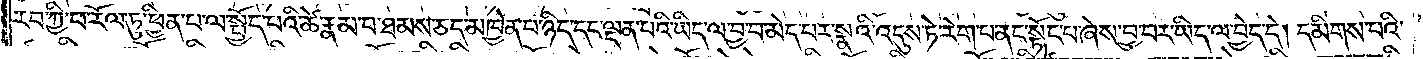རབ་ཀྱི་ཕ་རོལ་ཏུ་ཕྱིན་པ་ལ་སྤྱོད་པའི་ཚེ་རྣམ་པ་ཐམས་ཅད་མཁྱེན་པ་ཉིད་དང་ལྡན་པའི་ཡིད་ལ་བྱ་བ་མེད་པར་སྣའི་འདུས་ཏེ་རེག་པ་ནང་སྟོང་པ་ཞེས་བྱ་བར་ཡིད་ལ་བྱེད་དེ། དམིགས་པའི་
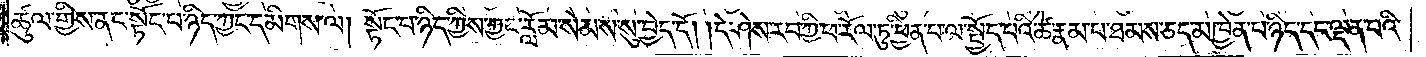ཚུལ་གྱིས་ནང་སྟོང་པ་ཉིད་ཀྱང་དམིགས་ལ། སྟོང་པ་ཉིད་ཀྱིས་ཀྱང་རློམ་སེམས་སུ་བྱེད་དོ། །དེ་ཤེས་རབ་ཀྱི་ཕ་རོལ་ཏུ་ཕྱིན་པ་ལ་སྤྱོད་པའི་ཚེ་རྣམ་པ་ཐམས་ཅད་མཁྱེན་པ་ཉིད་དང་ལྡན་པའི་
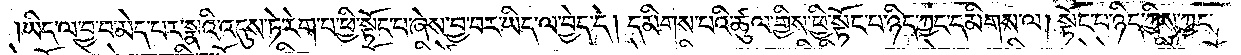ཡིད་ལ་བྱ་བ་མེད་པར་སྣའི་འདུས་ཏེ་རེག་པ་ཕྱི་སྟོང་པ་ཞེས་བྱ་བར་ཡིད་ལ་བྱེད་དེ། དམིགས་པའི་ཚུལ་གྱིས་ཕྱི་སྟོང་པ་ཉིད་ཀྱང་དམིགས་ལ། སྟོང་པ་ཉིད་ཀྱིས་ཀྱང་
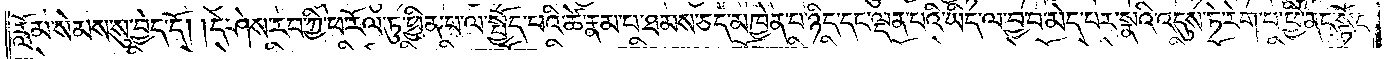རློམ་སེམས་སུ་བྱེད་དོ། །དེ་ཤེས་རབ་ཀྱི་ཕ་རོལ་ཏུ་ཕྱིན་པ་ལ་སྤྱོད་པའི་ཚེ་རྣམ་པ་ཐམས་ཅད་མཁྱེན་པ་ཉིད་དང་ལྡན་པའི་ཡིད་ལ་བྱ་བ་མེད་པར་སྣའི་འདུས་ཏེ་རེག་པ་ཕྱི་ནང་སྟོང་
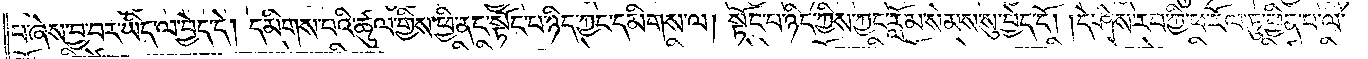པ་ཞེས་བྱ་བར་ཡིད་ལ་བྱེད་དེ། དམིགས་པའི་ཚུལ་གྱིས་ཕྱི་ནང་སྟོང་པ་ཉིད་ཀྱང་དམིགས་ལ། སྟོང་པ་ཉིད་ཀྱིས་ཀྱང་རློམ་སེམས་སུ་བྱེད་དོ། །དེ་ཤེས་རབ་ཀྱི་ཕ་རོལ་ཏུ་ཕྱིན་པ་ལ་
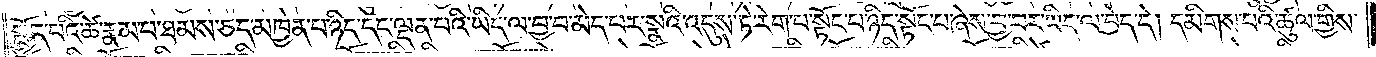སྤྱོད་པའི་ཚེ་རྣམ་པ་ཐམས་ཅད་མཁྱེན་པ་ཉིད་དང་ལྡན་པའི་ཡིད་ལ་བྱ་བ་མེད་པར་སྣའི་འདུས་ཏེ་རེག་པ་སྟོང་པ་ཉིད་སྟོང་པ་ཞེས་བྱ་བར་ཡིད་ལ་བྱེད་དེ། དམིགས་པའི་ཚུལ་གྱིས་
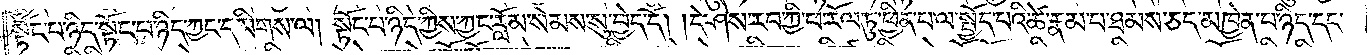སྟོང་པ་ཉིད་སྟོང་པ་ཉིད་ཀྱང་དམིགས་ལ། སྟོང་པ་ཉིད་ཀྱིས་ཀྱང་རློམ་སེམས་སུ་བྱེད་དོ། །དེ་ཤེས་རབ་ཀྱི་ཕ་རོལ་ཏུ་ཕྱིན་པ་ལ་སྤྱོད་པའི་ཚེ་རྣམ་པ་ཐམས་ཅད་མཁྱེན་པ་ཉིད་དང་
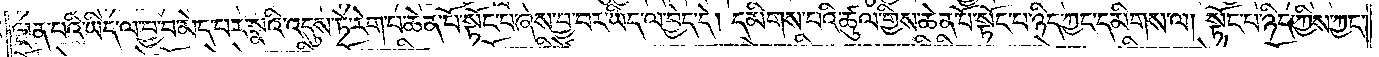ལྡན་པའི་ཡིད་ལ་བྱ་བ་མེད་པར་སྣའི་འདུས་ཏེ་རེག་པ་ཆེན་པོ་སྟོང་པ་ཞེས་བྱ་བར་ཡིད་ལ་བྱེད་དེ། དམིགས་པའི་ཚུལ་གྱིས་ཆེན་པོ་སྟོང་པ་ཉིད་ཀྱང་དམིགས་ལ། སྟོང་པ་ཉིད་ཀྱིས་ཀྱང་
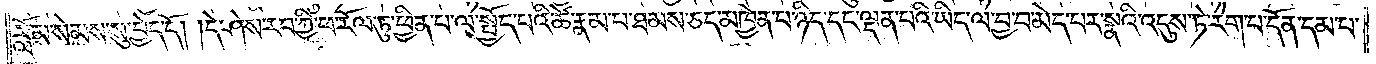རློམ་སེམས་སུ་བྱེད་དོ། །དེ་ཤེས་རབ་ཀྱི་ཕ་རོལ་ཏུ་ཕྱིན་པ་ལ་སྤྱོད་པའི་ཚེ་རྣམ་པ་ཐམས་ཅད་མཁྱེན་པ་ཉིད་དང་ལྡན་པའི་ཡིད་ལ་བྱ་བ་མེད་པར་སྣའི་འདུས་ཏེ་རེག་པ་དོན་དམ་པ་
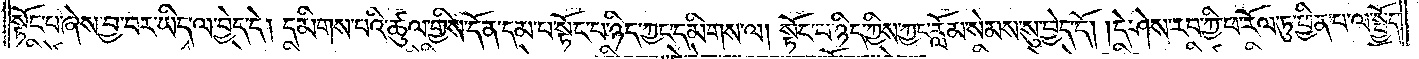སྟོང་པ་ཞེས་བྱ་བར་ཡིད་ལ་བྱེད་དེ། དམིགས་པའི་ཚུལ་གྱིས་དོན་དམ་པ་སྟོང་པ་ཉིད་ཀྱང་དམིགས་ལ། སྟོང་པ་ཉིད་ཀྱིས་ཀྱང་རློམ་སེམས་སུ་བྱེད་དོ། །དེ་ཤེས་རབ་ཀྱི་ཕ་རོལ་ཏུ་ཕྱིན་པ་ལ་སྤྱོད་
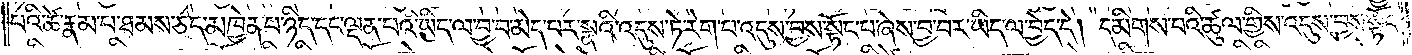པའི་ཚེ་རྣམ་པ་ཐམས་ཅད་མཁྱེན་པ་ཉིད་དང་ལྡན་པའི་ཡིད་ལ་བྱ་བ་མེད་པར་སྣའི་འདུས་ཏེ་རེག་པ་འདུས་བྱས་སྟོང་པ་ཞེས་བྱ་བར་ཡིད་ལ་བྱེད་དེ། དམིགས་པའི་ཚུལ་གྱིས་འདུས་བྱས་སྟོང་
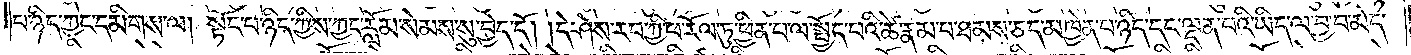པ་ཉིད་ཀྱང་དམིགས་ལ། སྟོང་པ་ཉིད་ཀྱིས་ཀྱང་རློམ་སེམས་སུ་བྱེད་དོ། །དེ་ཤེས་རབ་ཀྱི་ཕ་རོལ་ཏུ་ཕྱིན་པ་ལ་སྤྱོད་པའི་ཚེ་རྣམ་པ་ཐམས་ཅད་མཁྱེན་པ་ཉིད་དང་ལྡན་པའི་ཡིད་ལ་བྱ་བ་མེད་
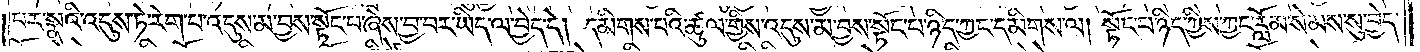པར་སྣའི་འདུས་ཏེ་རེག་པ་འདུས་མ་བྱས་སྟོང་པ་ཞེས་བྱ་བར་ཡིད་ལ་བྱེད་དེ། དམིགས་པའི་ཚུལ་གྱིས་འདུས་མ་བྱས་སྟོང་པ་ཉིད་ཀྱང་དམིགས་ལ། སྟོང་པ་ཉིད་ཀྱིས་ཀྱང་རློམ་སེམས་སུ་བྱེད་
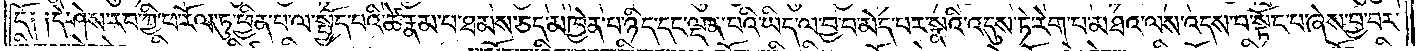དོ༑ ༑དེ་ཤེས་རབ་ཀྱི་ཕ་རོལ་ཏུ་ཕྱིན་པ་ལ་སྤྱོད་པའི་ཚེ་རྣམ་པ་ཐམས་ཅད་མཁྱེན་པ་ཉིད་དང་ལྡན་པའི་ཡིད་ལ་བྱ་བ་མེད་པར་སྣའི་འདུས་ཏེ་རེག་པ་མཐའ་ལས་འདས་པ་སྟོང་པ་ཞེས་བྱ་བར་
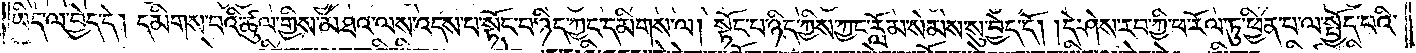ཡིད་ལ་བྱེད་དེ། དམིགས་པའི་ཚུལ་གྱིས་མཐའ་ལས་འདས་པ་སྟོང་པ་ཉིད་ཀྱང་དམིགས་ལ། སྟོང་པ་ཉིད་ཀྱིས་ཀྱང་རློམ་སེམས་སུ་བྱེད་དོ། །དེ་ཤེས་རབ་ཀྱི་ཕ་རོལ་ཏུ་ཕྱིན་པ་ལ་སྤྱོད་པའི་
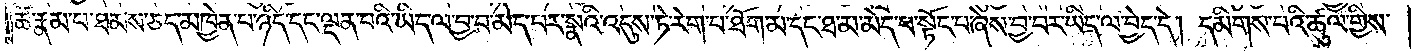ཚེ་རྣམ་པ་ཐམས་ཅད་མཁྱེན་པ་ཉིད་དང་ལྡན་པའི་ཡིད་ལ་བྱ་བ་མེད་པར་སྣའི་འདུས་ཏེ་རེག་པ་ཐོག་མ་དང་ཐ་མ་མེད་པ་སྟོང་པ་ཞེས་བྱ་བར་ཡིད་ལ་བྱེད་དེ། དམིགས་པའི་ཚུལ་གྱིས་
